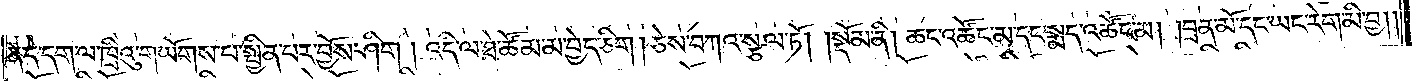ན་དེ་དག་ལ་ཁྲིའུ་གཡོགས་པ་སྦྱིན་པར་བྱོས་ཤིག །འདི་ལ་ཐེ་ཚོམ་མ་བྱེད་ཅིག །ཅེས་བཀའ་སྩལ་ཏོ།    །སྡོམ་ནི། ཆང་འཚོང་མ་དང་སྨད་འཚོང་མ། །བྲན་མོ་དང་ཡང་རེག་མི་བྱ།
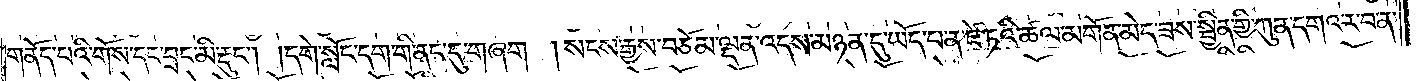གནོད་པའི་གོས་དང་བྲང་མི་རྡུང༌། །དགེ་སློང་དག་གི་ནང་དུ་གཞག །སངས་རྒྱས་བཅོམ་ལྡན་འདས་མཉན་དུ་ཡོད་པ་ན་ཛེ་ཏའི་ཚལ་མགོན་མེད་ཟས་སྦྱིན་གྱི་ཀུན་དགའ་ར་བ་ན་
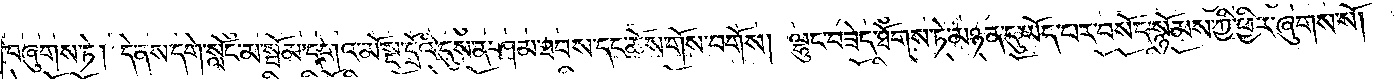བཞུགས་ཏེ། དེ་ནས་དགེ་སློང་མ་སྦོམ་དགའ་མོ་སྔ་དྲོའི་དུས་ན་ཤམ་ཐབས་དང་ཆོས་གོས་བགོས། ལྷུང་བཟེད་ཐོགས་ཏེ་མཉན་དུ་ཡོད་པར་བསོད་སྙོམས་ཀྱི་ཕྱིར་ཞུགས་སོ། །
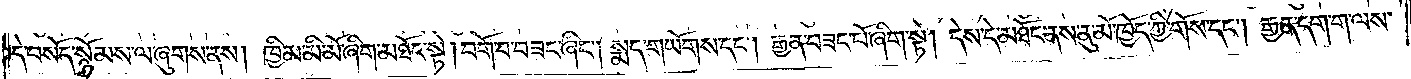དེ་བསོད་སྙོམས་ལ་ཞུགས་ནས། ཁྱིམ་མི་མོ་ཞིག་མཐོང་སྟེ། བགོ་བ་བཟང་ཞིང༌། སྨད་གཡོགས་དང༌། རྒྱན་བཟང་པོ་ཞིག་སྟེ། དེས་དེ་མཐོང་ནས་ནུ་མོ་ཁྱོད་ཀྱི་གོས་དང༌། རྒྱན་དག་ག་ལས་
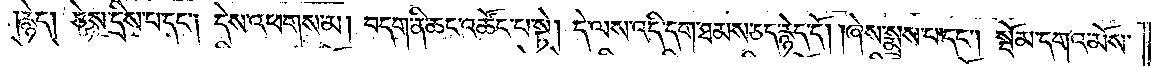རྙེད། ཅེས་དྲིས་པ་དང༌། དེས་འཕགས་མ། བདག་ནི་ཆང་འཚོང་པ་སྟེ། དེ་ལས་འདི་དག་ཐམས་ཅད་རྙེད་དོ། །ཞེས་སྨྲས་པ་དང༌། སྦོམ་དགའ་མོས་
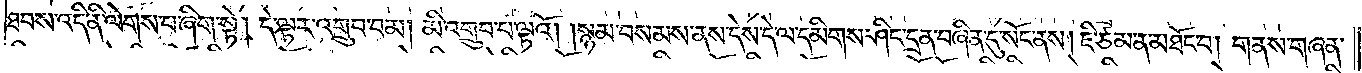ཐབས་འདི་ནི་ལེགས་པ་ཞིག་སྟེ། དེ་ལྟར་འགྲུབ་བམ། མི་འགྲུབ་པ་ལྟའོ། །སྙམ་བསམས་ནས་དེས་དེ་ལ་དམིགས་ཤིང་དྲན་པ་བཞིན་དུ་སོང་ནས། ཇི་ཙམ་ན་མཐོང་བ། གནས་གཞན་
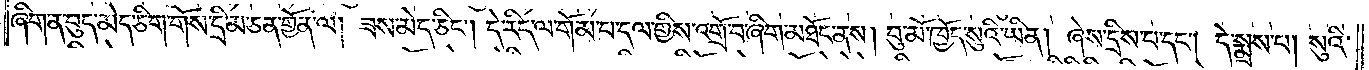ཞིག་ན་བུད་མེད་ཅིག་གོས་དྲི་མ་ཅན་གྱོན་ལ། ཟས་མེད་ཅིང༌། དེ་རིད་ལ་གོམ་པ་དལ་གྱིས་འགྲོ་བ་ཞིག་མཐོང་ནས། བུ་མོ་ཁྱོད་སུའི་ཡིན། ཞེས་དྲིས་པ་དང༌། དེ་སྨྲས་པ། སུའི་
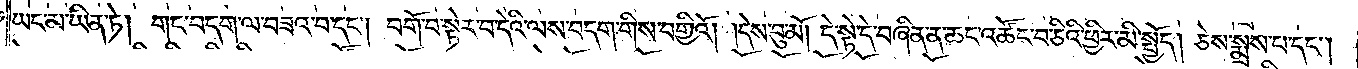ཡང་མ་ཡིན་ཏེ། གང་བདག་ལ་བཟའ་བ་དང༌། བགོ་བ་སྟེར་བ་དེའི་ལས་བདག་གིས་བགྱིའོ། །དེས་བུ་མོ། དེ་སྟེ་དེ་བཞིན་ན་ཆང་འཚོང་བ་ཅིའི་ཕྱིར་མི་སྤྱོད། ཅེས་སྨྲས་པ་དང༌།
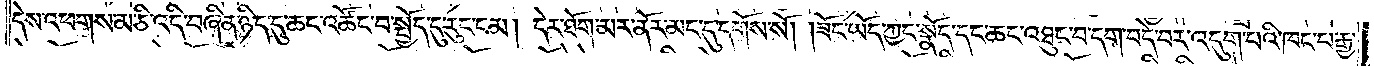དེས་འཕགས་མ་ཅི་འདི་བཞིན་ཉིད་དུ་ཆང་འཚོང་བ་སྤྱོད་དུ་རུང་ངམ། དེར་ཐོག་མར་ནོར་མང་དུ་དགོས་སོ། །ཟོང་ཡོད་ཀྱང་སྣོད་དང་ཆང་འཐུང་བ་དག་བདེ་བར་འདུག་པའི་ཁང་པ་རྒྱ་
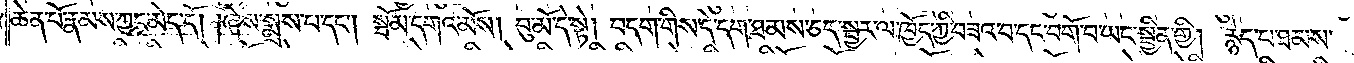ཆེན་པོ་རྣམས་ཀྱང་མེད་དོ། །ཞེས་སྨྲས་པ་དང༌། སྦོམ་དགའ་མོས། བུ་མོ་དེ་སྟེ། བདག་གིས་དེ་དག་ཐམས་ཅད་སྦྱར་ལ་ཁྱོད་ཀྱི་བཟའ་བ་དང་བགོ་བ་ཡང་སྦྱིན་གྱི། རྙེད་པ་ཐམས་
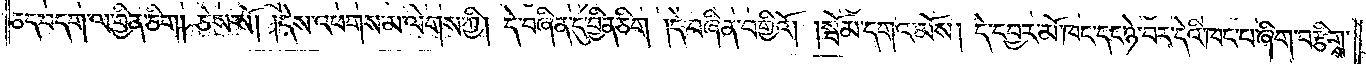ཅད་བདག་ལ་བྱིན་ཅིག །ཅེས་སོ། །དེས་འཕགས་མ་ལེགས་ཀྱི། དེ་བཞིན་དུ་བྱིན་ཅིག །དེ་བཞིན་བགྱིའོ། །སྦོམ་དགའ་མོས། དེ་དབྱར་མོ་ཁང་དང་ཉེ་བར་དེའི་ཁང་པ་ཞིག་བརྩིགས་
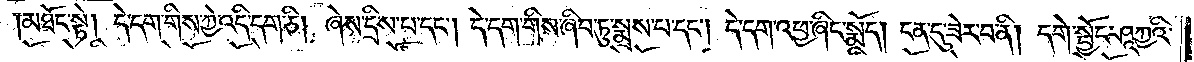མཐོང་སྟེ། དེ་དག་གིས་ཀྱེ་འདི་དག་ཅི། ཞེས་དྲིས་པ་དང༌། དེ་དག་གིས་ཞིབ་ཏུ་སྨྲས་པ་དང༌། དེ་དག་འཕྱ་ཞིང་སྨོད། ངན་དུ་ཟེར་བ་ནི། དགེ་སྦྱོང་ཤཱཀྱའི་
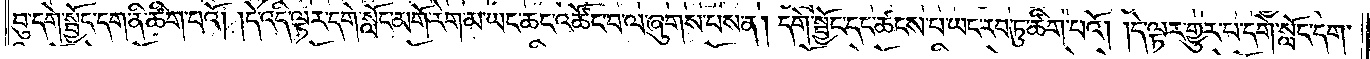བུ་དགེ་སྦྱོང་དག་ནི་ཚིག་པའོ། །དེ་འདི་ལྟར་དགེ་སློང་མགོ་རེག་མ་ཡང་ཆང་འཚོང་བ་ལ་ཞུགས་པས་ན། དགེ་སྦྱོང་དང་ཚངས་པ་ཡང་རབ་ཏུ་ཚིག་པའོ། །དེ་ལྟར་གྱུར་པ་དགེ་སློང་དག་
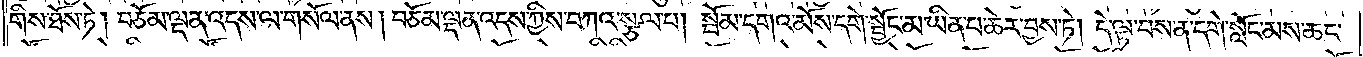གིས་ཐོས་ཏེ། བཅོམ་ལྡན་འདས་ལ་གསོལ་ནས། བཅོམ་ལྡན་འདས་ཀྱིས་བཀའ་སྩལ་པ། སྦོམ་དགའ་མོས་དགེ་སྦྱོང་མ་ཡིན་པ་ཆེར་བྱས་ཏེ། དེ་ལྟ་བས་ན་དགེ་སློང་མས་ཆང་
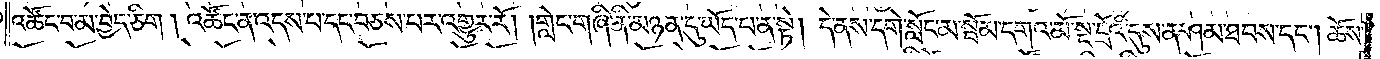འཚོང་བ་མ་བྱེད་ཅིག །འཚོང་ན་འདས་པ་དང་བཅས་པར་འགྱུར་རོ། །གླེང་གཞི་ནི་མཉན་དུ་ཡོད་པ་ན་སྟེ། དེ་ནས་དགེ་སློང་མ་སྦོམ་དགའ་མོ་སྔ་དྲོའི་དུས་ན་ཤམ་ཐབས་དང༌། ཆོས་
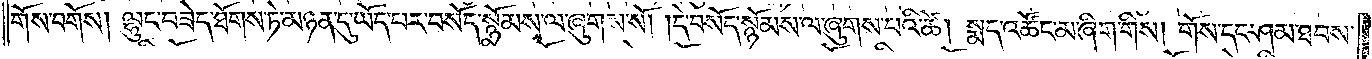གོས་བགོས། ལྷུང་བཟེད་ཐོགས་ཏེ་མཉན་དུ་ཡོད་པར་བསོད་སྙོམས་ལ་ཞུགས་སོ། །དེ་བསོད་སྙོམས་ལ་ཞུགས་པའི་ཚེ། སྨད་འཚོང་མ་ཞིག་གིས། གོས་དང་ཤམ་ཐབས་
